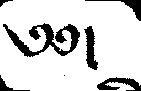༄༅།
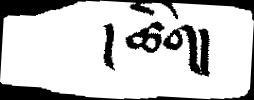། ཚིག།
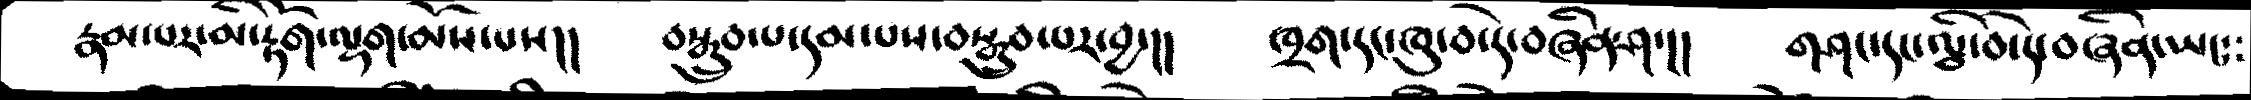རྣམ་པར་མི་རྟོག་ལྷག་མོས་པས།།  བསྒྲུབ་པ་དམ་པས་བསྒྲུབ་པར་བྱ་།།  ཁྲག་དང་ཁུ་བ་དེ་བཞིན་ཤ་།།  གཤང་དང་ལྕི་བ་དེ་བཞིན་ཡང༴༴
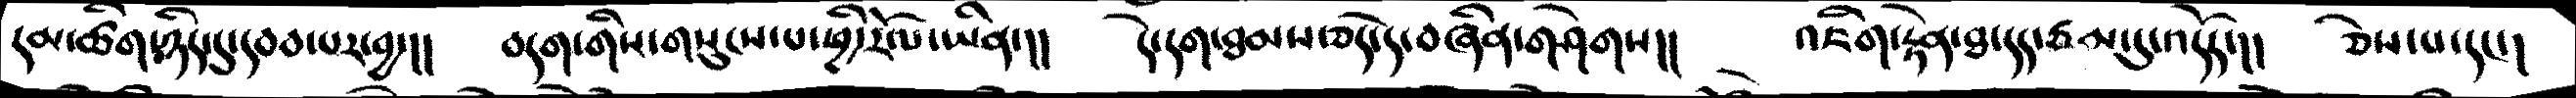དམ་ཚིག་ཉིད་དུ་དབབ་པར་བྱ་།།  བདག་གིས་གསུངས་པ་ཕྱི་རོལ་ཡིན་།། དེ་དག་ཐམས་ཅད་དེ་བཞིན་གཤེགས།།   འཇིག་རྟེན་ཐ་དད་ཙམ་དུ་འདོད་།།  ཅེས་པ་དང་།
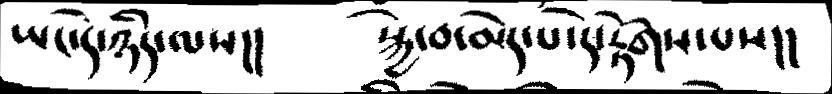ཡང་དེ་ཉིད་ལས།།  སྐྱེ་བ་མེད་པ་དེ་རྟོགས་པས།།
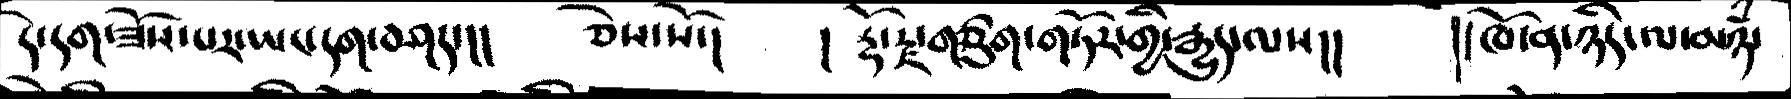དེ་དག་ཟོས་པར་ཡང་དག་བཤད་།།  ཅེས་སོ་།  །  རྡོ་རྗེ་གཙུག་གཏོར་གྱི་རྒྱུད་ལས།།   །ཁོ་ན་ཉིད་ལ་མཉཾ་
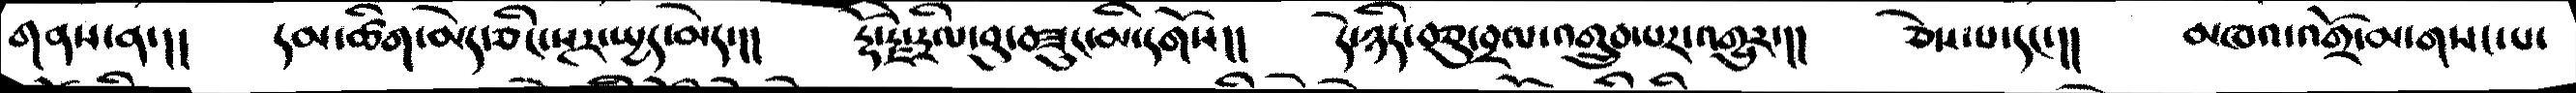གནས་ན་།།  དམ་ཚིག་མེད་ཅིང་སྔར་སྤད་མེད་།།   རྡོ་རྗེ་དྲིལ་བུ་བཟུང་མི་དགོས།།  དེ་ཉིད་བཅུ་བྲལ་འགྲུབ་པར་འགྱུར་།།   ཅེས་པ་དང་།།  མཁའ་འགྲོ་མ་གསང་པ་
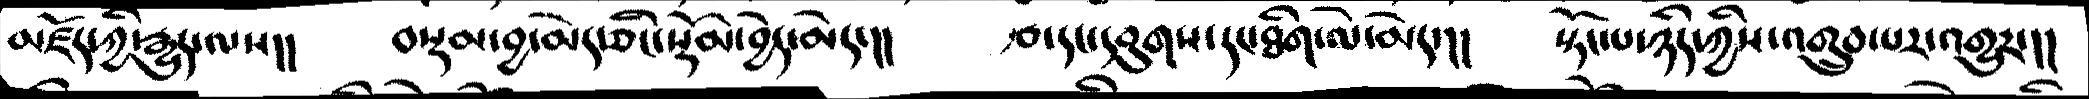མཛོད་ཀྱི་རྒྱུད་ལས།།  བསྟམ་བྱ་མེད་ཅིང་སྡོམ་བྱེད་མེད་།།  རྩ་དང་དབུགས་དང་ཐིག་ལེ་མེད་།།  སྟོང་པ་ཉིད་ཀྱིས་འགྲུབ་པར་འགྱུར་།།
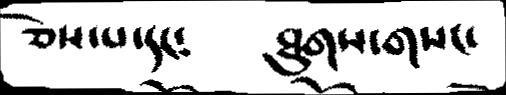ཅེས་པ་དང༴    ཐུགས་གསང་
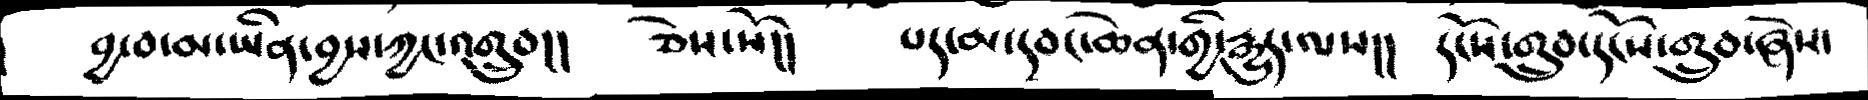བྱ་བ་མ་ཡིན་བྱས་ཀྱང་འགྲུབ།།  ཅེས་སོ།།  པར་མ་དབང་ཆེན་གྱི་རྒྱུད་ལས།།  དངོས་གྲུབ་དངོས་གྲུབ་ཞེས་
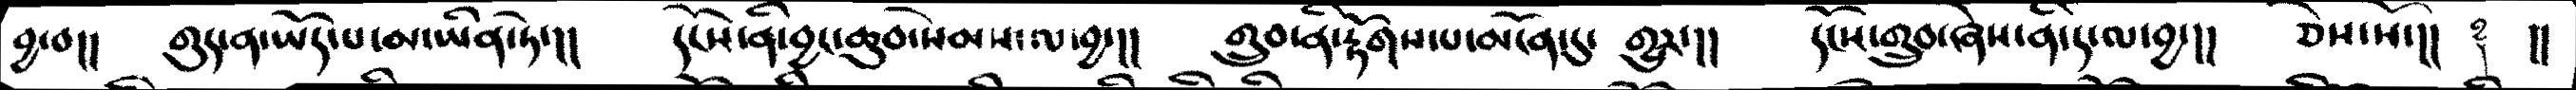བྱ་བ།།  གུད་ན་ཡོད་པ་མ་ཡིན་ཏེ་།།  དངོས་ནི་བྱང་ཆུབ་སེངས་ལ་བྱ་།།  གྲུབ་ནི་རྟོགས་པ་མངོན་དུ་ གྱུར་།  དངོས་གྲུབ་ཞེས་ན་དེ་ལ་བྱ་།།  ཅེས་སོ་།།  ༈  །།
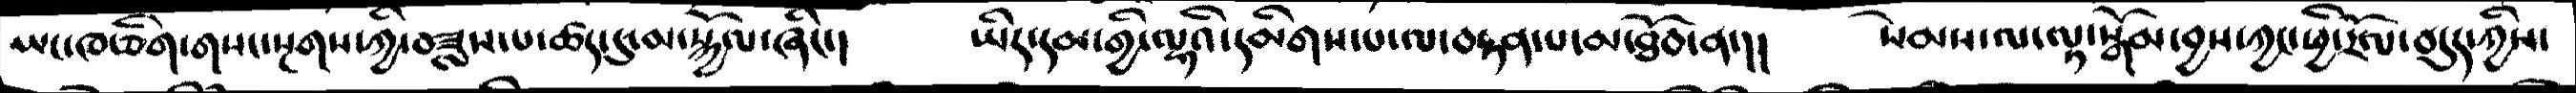ཡང་ཁ་ཅིག་གསང་སྔགས་ཀྱི་བཟླས་པ་ཚད་དུ་མ་སྐྱོལ་ཞིང་།   ཡིད་དམ་གྱི་ལྷའི་དམིགས་པ་ལ་བརྟན་པ་མ་ཐོབ་ན་།།  སེམས་ལ་ལྟ་སྒོམ་བྱས་ཀྱང་ཕྱི་རོལ་བདུད་ཀྱིས་
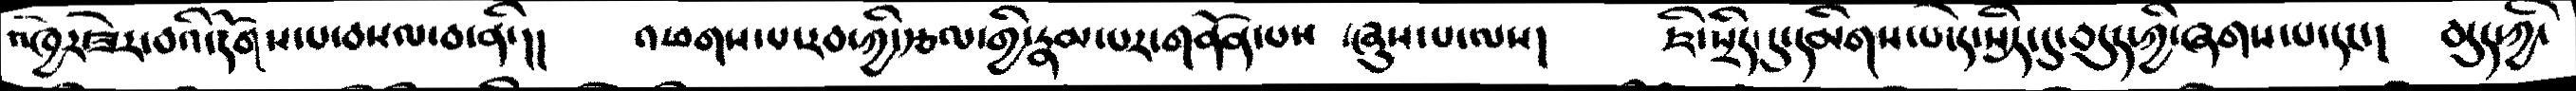འཁྱེར་ཟེར་བའི་དོགས་པ་བསལ་བ་ནི་།།  འཕགས་པ་རབ་ཀྱི་རྩལ་གྱི་རྣམ་པར་གནོན་པས ཞུས་པ་ལས།  ཇི་སྲིད་དུ་དམིགས་པ་དེ་སྲིད་དུ་བདུད་ཀྱི་ཞགས་པ་དང་།  བདུད་ཀྱི་
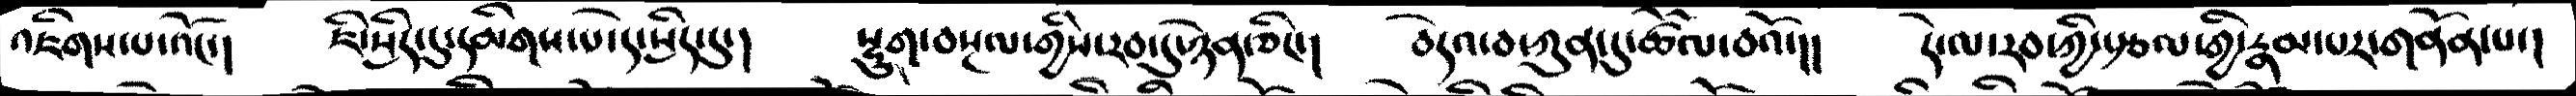འཇིགས་པ་འའོང་།  ཇི་སྲིད་དུ་དམིགས་པ་དེ་སྲིད་དུ་།  སྡུག་བསྔལ་གྱིས་རབ་དུ་ཉེན་ཅིང་།  བདེའ་བ་ཀུན་དུ་ཚོལ་བའོ་།། དེ་ལ་རབ་ཀྱི་རྩལ་གྱི་རྣམ་པར་གནོན་པ་།
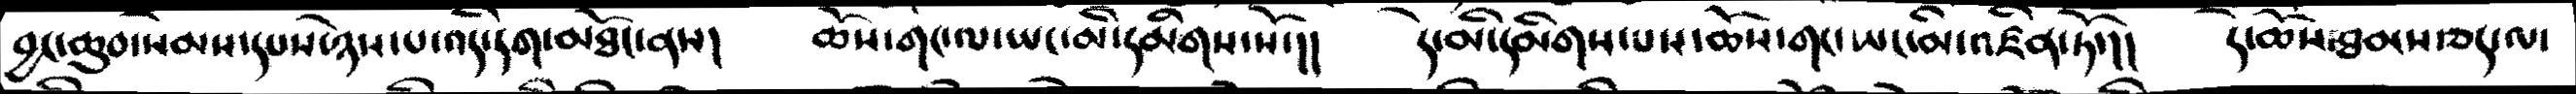བྱང་ཆུབ་སེམས་དཔས་ཉེས་པ་འདི་དག་མཐོང་ནས།  ཆོས་གང་ཡང་མི་དམིགས་པོ་།།  དེ་མི་དམིགས་པས་ཆོས་གང་ཡང་མི་འཛིན་ཏོ་།།  དེ་ཆོས་ཐམས་ཅད་ལ་
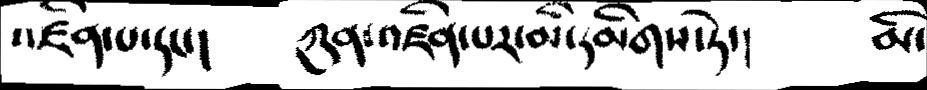འཛིན་པ་དང་།  ཀུན་འཛིན་པར་མི་དམིགས་ཏེ་།   མི་
